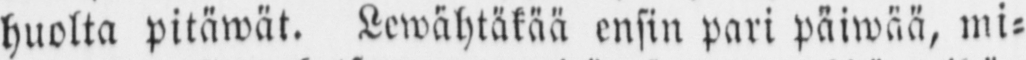huolta pitäwät. Lewähtäkää ensin pari päiwää, mi-
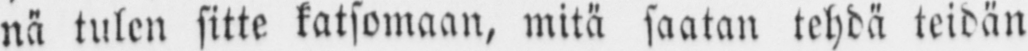nä tulen sitte katsomaan, mitä saatan tehdä teidän
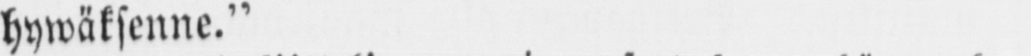hywäksenne.”
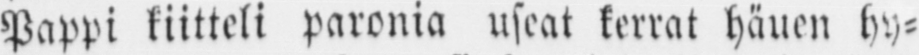Pappi kiitteli paronia useat kerrat hänen hy-
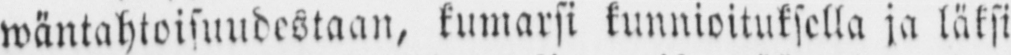wäntahtoisuudestaan, kumarsi kunnioituksella ja läksi
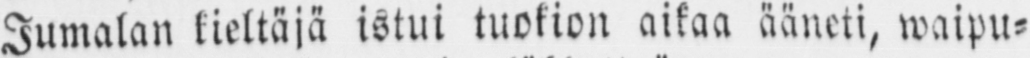Jumalan kieltäjä istui tuokion aikaa ääneti, waipu-
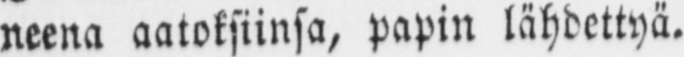neena aatoksiinsa, papin lähdettyä.
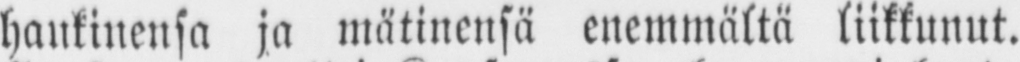hankinensa ja mätinensä enemmältä liikkunut.
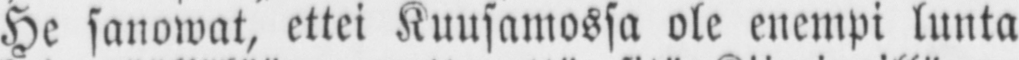He sanowat, ettei Kuusamossa ole enempi lunta
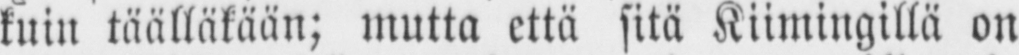kuin täälläkään; mutta että sitä Kiimingillä on
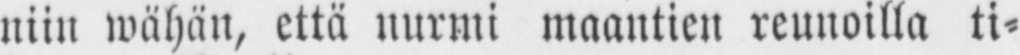niin wähän, että nurmi maantien reunoilla ti-
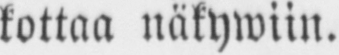kottaa näkywiin.
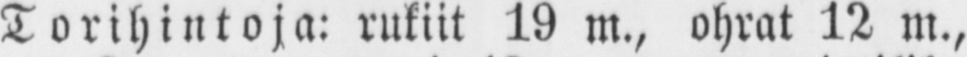Torih intoja: rukiit 19 m., ohrat 12 m.,
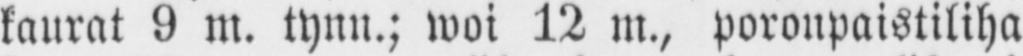kaurat 9 m. tynn.; woi 12 m., poronpaistiliha
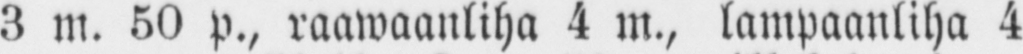3 m. 50 p., raawaanliha 4 m., lampaanliha 4
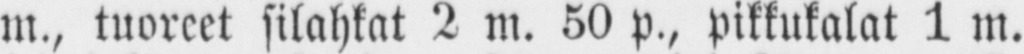m., tuoreet silahkat 2 m. 50 p., pikkukalat 1 m.
